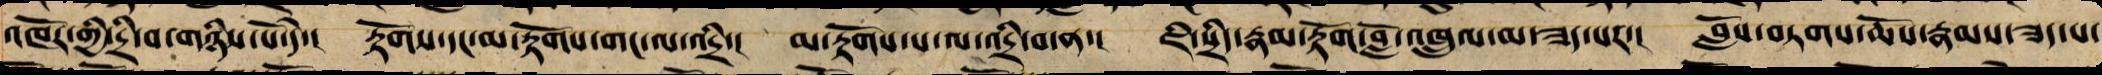འཁོར་གྱི་དྲི་བ་གཉིས་པོ་དེ་། རྟོགས་དང་མ་རྟོགས་གང་ལ་འདྲི་། མ་རྟོགས་པ་ལ་འདྲི་བ་ན་། ཇི་སྲིད་རྣམ་རྟོག་བློ་འཁྲུལ་མ་ཟད་པར་། བློས་བཏགས་ཆོས་རྣམས་ཟད་པ་
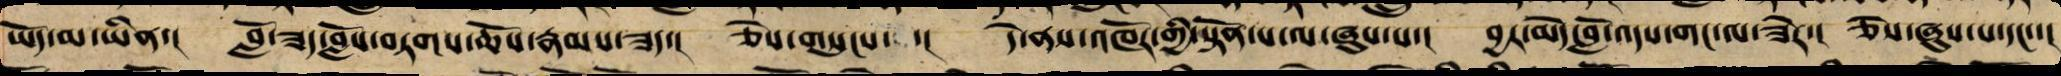ཡོད་མ་ཡིན་། བློ་ཟད་བློས་བཏགས་ཆོས་རྣམས་ཟད་། ཅེས་གསུངས་སོ་། དེ་ནས་འཁོར་གྱིས་སྟོན་པ་ལ་ཞུས་པ་། བྱར་མེད་བློ་འདས་གང་ལ་ཟེར་། ཞེས་ཞུས་པ་དང་་།
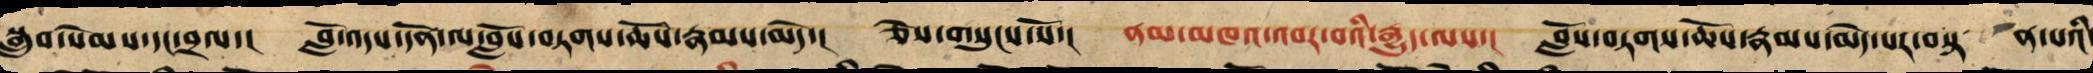བསྒྲུབ་སེམས་དང་བྲལ་། བློ་འདས་དོན་ལ་བློས་བཏགས་ཆོས་རྣམས་མེད་། ཅེས་གསུངས་སོ་། ནམ་མཁའ་འབར་བའི་རྒྱུད་ལས་། བློས་བཏགས་ཆོས་རྣམས་མེད་པར་བསྟན་པའི་
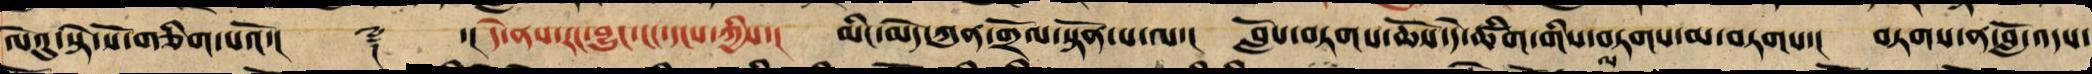ལེའུ་སྟེ་སོ་གཅིག་པའོ་།། ༈ ་།། དེ་ནས་རང་བྱུང་ངང་དངས་ཀྱིས་། མིང་མེད་ཀུན་གྲོལ་སྟོན་པ་ལ་། བློས་བཏགས་ཆོས་དེ་ཚིག་གིས་བཏགས་མ་བཏགས་། བཏགས་ན་བློ་འདས་
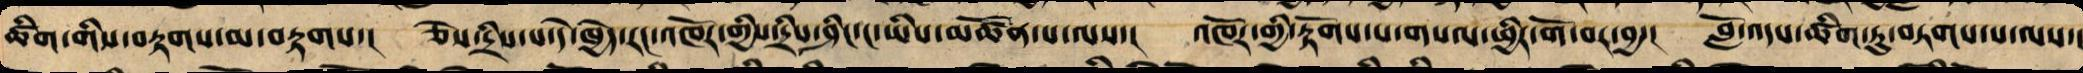ཚིག་གིས་བརྟགས་མ་བརྟགས་། ཅེས་དྲིས་པ་དེ་ཁྱེད་རང་འཁོར་གྱིས་དྲིས་ཤིང་ང་ཡིས་མཚོན་པ་ལས་། འཁོར་གྱི་རྟོག་པ་བསལ་ཕྱིར་གོ་བ་ལས་། བློ་འདས་ཚིག་ཏུ་བཏགས་པ་ལས་།
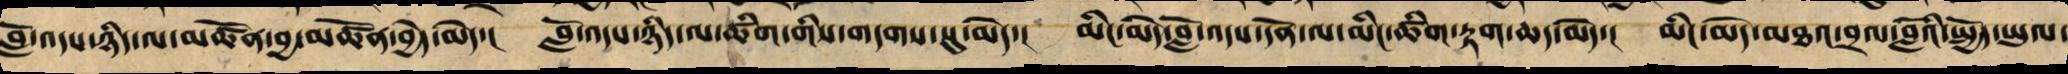བློ་འདས་ཉིད་ལ་མཚོན་བྱ་མཚོན་བྱེད་མེད། བློ་འདས་ཉིད་ལ་ཚིག་གིས་གདགས་སུ་མེད་། མིང་མེད་བློ་འདས་དོན་ལ་མིང་ཚིག་བརྟག་ཆད་མེད་། མིང་མེད་མཐའ་བྲལ་བློའི་སྤྱོད་ཡུལ་
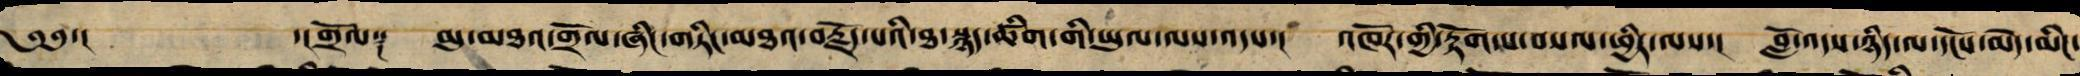༄༅་། ་།གྲོལ་། མུ་མཐའ་གྲོལ་ཞིངགཏིང་མཐའ་བརྗོད་པའི་ཐ་སྙད་ཚིག་གི་ཡུལ་ལས་འདས་། འཁོར་གྱི་རྟོག་པ་བསལ་ཕྱིར་ལས་། བློ་འདས་ཉིད་ལ་དངོས་མེད་མིང་
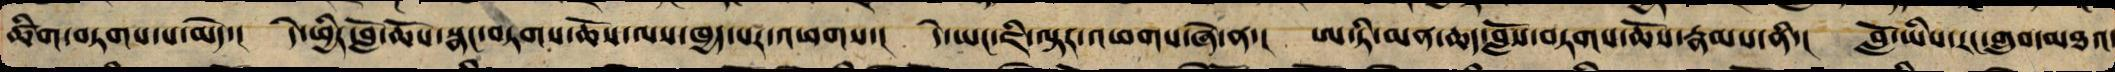ཚིག་བཏགས་པ་མེད་། དེ་ཕྱིར་བློས་བཏགས་ཆོས་ལས་ཁྱད་པར་འཕགས་། དེ་ཡང་ཇི་ལྟར་འཕགས་ཞེ་ན་། ཨ་ཏི་མན་ཆད་བློས་བཏགས་ཆོས་རྣམས་ནི་། བློ་ཡིས་རང་རང་གྲུབ་མཐའ་
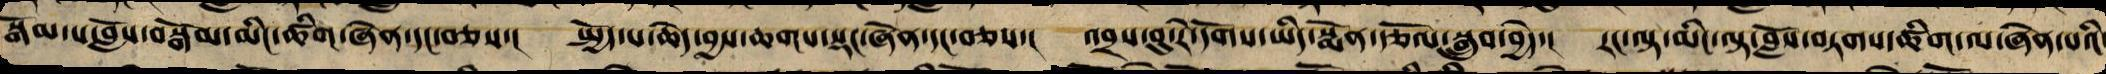སྒོམ་པ་བློས་བསྒོམ་མིང་ཚིག་ཞེན་དང་བཅས་། སྤྱོད་པ་ཆེད་བྱས་ཆགས་སྡང་ཞེན་དང་བཅས་། འབྲས་བུ་རེ་དོགས་ཡིད་སྨོན་རྩོལ་སྒྲུབ་བྱེད་། རང་ལྟ་མིང་ལྟ་བློས་བཏགས་ཚིག་ལ་ཞེན་པའི་
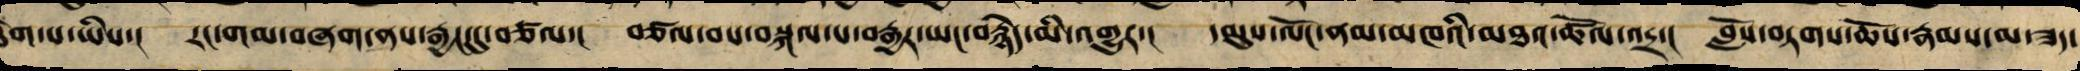ཐེག་པ་ཡིས་། རང་གམ་བཞག་ནས་རྒྱང་དུ་བཙལ་། བཙལ་བས་བསྐལ་པ་བརྒྱར་ཡང་བརྙེད་མི་འགྱུར་། དམུས་ལོང་ནམ་མཁའི་མཐའ་ཚོལ་འདྲ་། བློས་བཏགས་ཆོས་རྣམས་མ་ཟད་
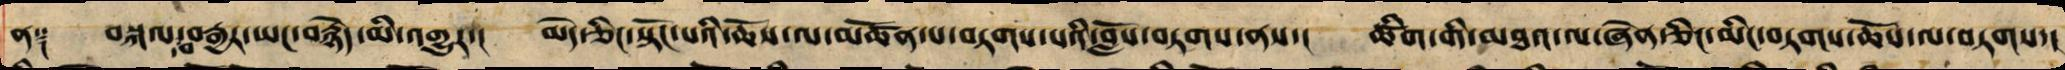ན༑ བསྐལ་བ་བརྒྱར་ཡང་བརྙེད་མི་འགྱུར་། མེད་ཅིང་སྟོང་པའི་ཆོས་ལ་མཚོན་པ་བཏགས་པའི་བློས་བཏགས་ནས་། ཚིག་གི་མཐའ་ལ་ཞེན་ཅིང་མིང་བཏགས་ཆོས་ལ་བཏགས་།
